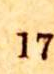17
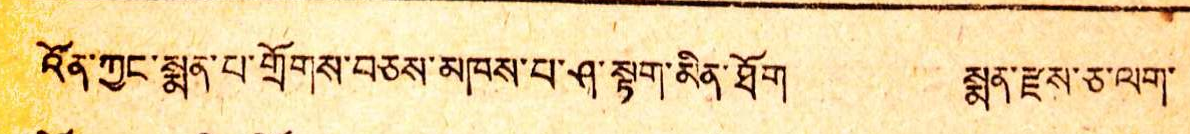འོན་ཀྱང་སྨན་པ་གྲོགས་བཅས་མཁས་པ་ཤ་སྟག་མིན་ཐོག སྨན་རྫས་ཅ་ལག་
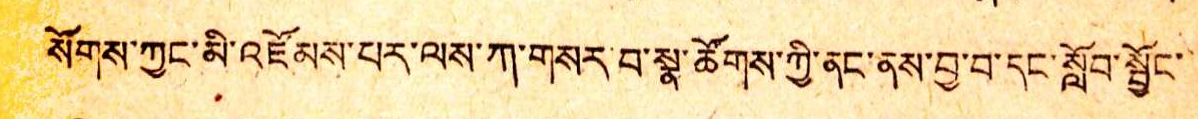སོགས་ཀྱང་མི་འཛོམས་པར་ལས་ཀ་གསར་བ་སྣ་ཚོགས་ཀྱི་ནང་བྱ་བ་དང་སློབ་སྦྱོང་
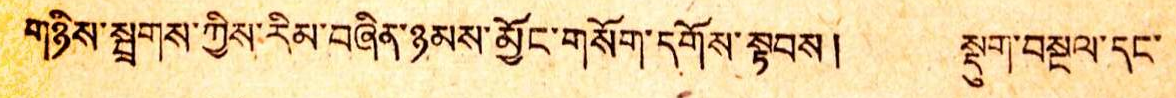གཉིས་སྦྲགས་ཀྱིས་རིམ་བཞིན་ཉམས་མྱོང་གསོག་དགོས་སྟབས། སྡུག་བསྔལ་དང་
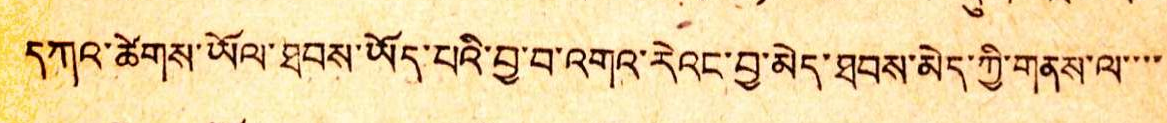དཀའ་ཚེགས་ཡོལ་ཐབས་ཡོད་པའི་བྱ་བ་འགའ་རེའང་བྱ་མེད་ཐབས་མེད་ཀྱི་གནས་ལ་་་་
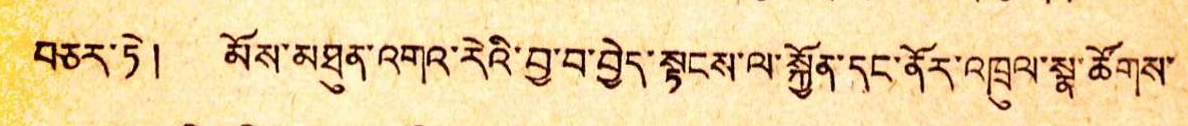བཅར་ཏེ། མོས་མཐུན་འགའ་རེའི་བྱ་བ་བྱེད་སྟངས་ལ་སྐྱོན་དང་ནོར་འཁྲུལ་སྣ་ཚོགས་
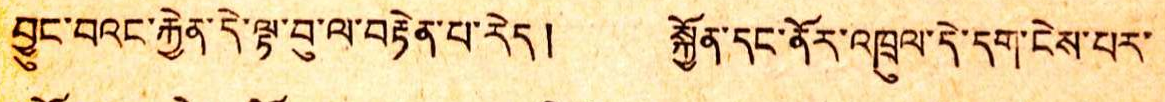བྱུང་བའང་རྐྱེན་དེ་ལྟ་བུ་ལ་བརྟེན་པ་རེད ། སྐྱོན་དང་ནོར་འཁྲུལ་དེ་དག་ངེས་པར་
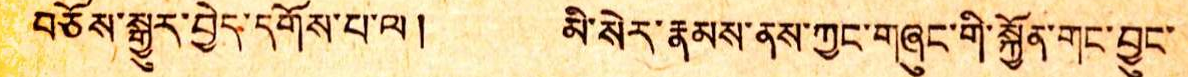བཅོས་སྒྱུར་བྱེད་དགོས་པ་ལ ། མི་སེར་རྣམས་ནས་ཀྱང་གཞུང་གི་སྐྱོན་གང་བྱུང་
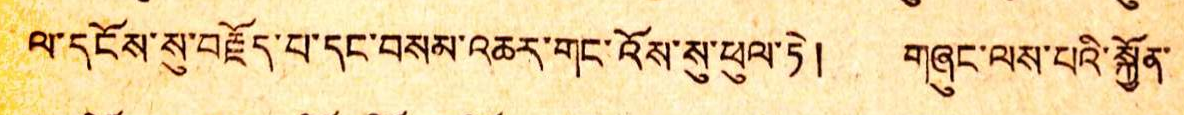ལ་དངོས་སུ་བརྗོད་པ་དང་བསམ་འཆར་གང་འོས་སུ་ཕུལ་ཏེ། གཞུང་ལས་པའི་སྐྱོན་
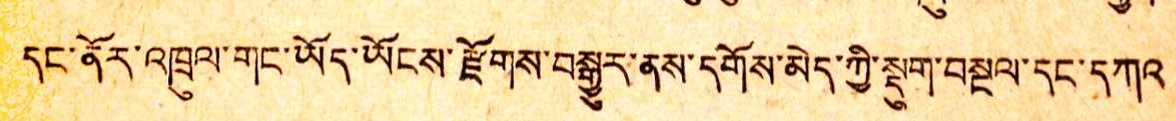དང་ནོར་འཁྲུལ་གང་ཡོད་ཡོངས་རྫོགས་བསྒྱུར་ནས་དགོས་མེད་ཀྱི་སྡུག་བསྔལ་དང་དཀའ
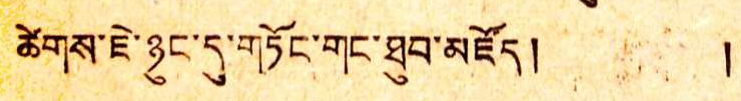ཚེགས་ཇེ་ཉུང་དུ་གཏོང་གང་ཐུབ་མཛོད ། །
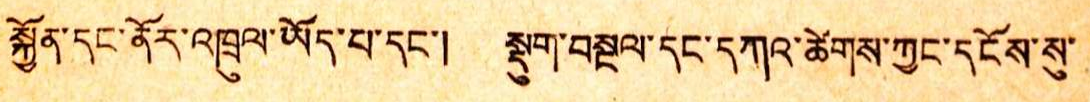སྐྱོན་དང་ནོར་འཁྲུལ་ཡོད་པ་དང་། སྡུག་བསྔལ་དང་དཀའ་ཚེགས་ཀྱང་དངོས་སུ་
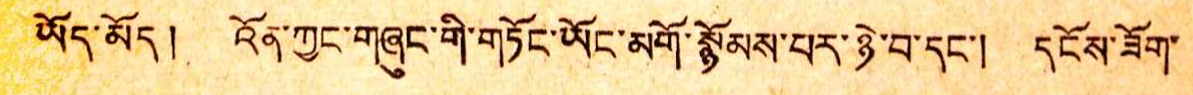ཡོད་མོད། འོན་ཀྱང་གཞུང་གི་གཏོང་ཡོང་མགོ་སྙོམས་པར་ཉེ་བ་དང་། དངོས་ཟོག་
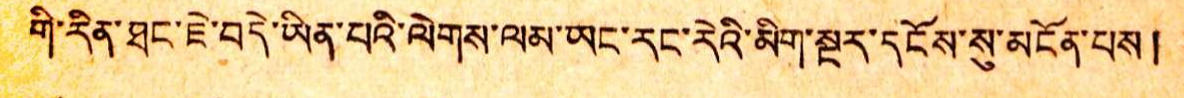གི་རིན་ཐང་ཇེ་བདེ་ཡིན་པའི་ལེགས་ལམ་ཡང་རང་རེའི་མིག་སྔར་དངོས་སུ་མངོན་པས །
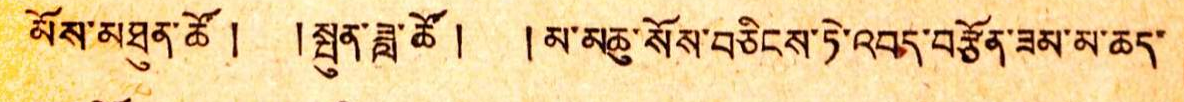མོས་མཐུན་ཚོ ། །སྤུན་ཟླ་ཚོ ། །མ་མཆུ་སོས་བཅིངས་ཏེ་འབད་བརྩོན་ཟམ་མ་ཆད་
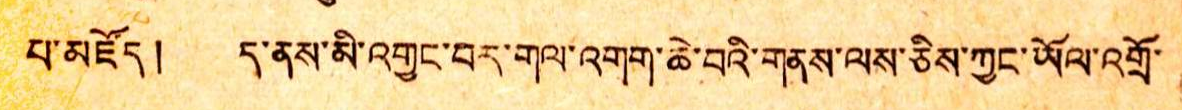པ་མཛོད ། ད་ནས་མི་འགྱང་བར་གལ་འགག་ཆེ་བའི་གནས་ལས་ཅིས་ཀྱང་ཡོལ་འགྲོ་
